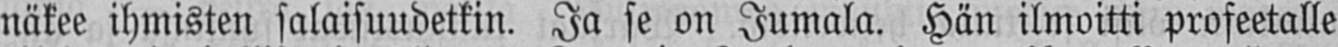näkee ihmisten salaisuudetkin. Ja se on Jumala. Hän ilmoitti profeetalle
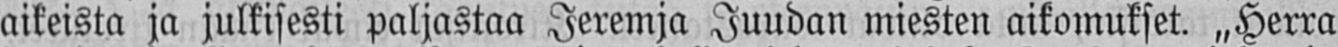aikeista ja julkisesti paljastaa Jeremja Juudan miesten aikomukset. „Herra
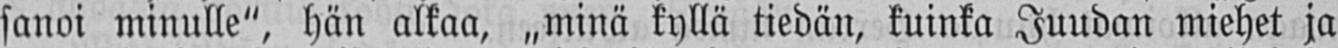sanoi minulle", hän alkaa, „minä kyllä tiedän, kuinka Juudan miehet ja
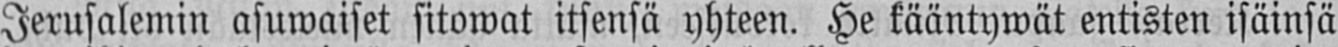Jerusalemin asuwaiset sitowat itsensä yhteen. He kääntywät entisten isäinsä
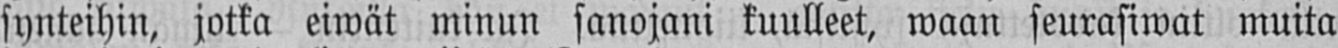synteihin, jotka eiwät minun sanojani kuulleet, waan seurasiwat muita
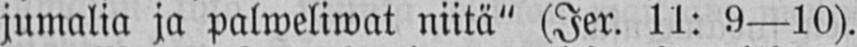jumalia ja palweliwat niitä" (Jer. 11: 9—10).
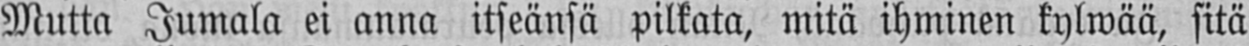Mutta Jumala ei anna itseänsä pilkata, mitä ihminen kylwää, sitä
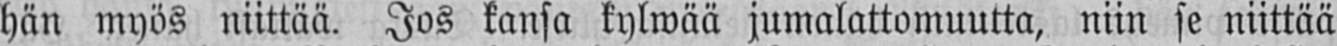hän myös niittää. Jos kansa kylwää jumalattomuutta, niin se niittää
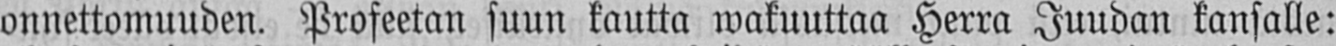onnettomuuden. Profeetan suun kautta wakuuttaa Herra Juudan kansalle:
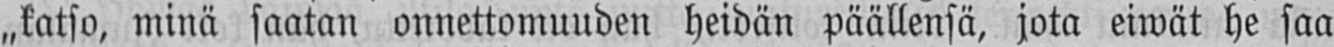„katso, minä saatan onnettomuuden heidän päällensä, jota eiwät he saa
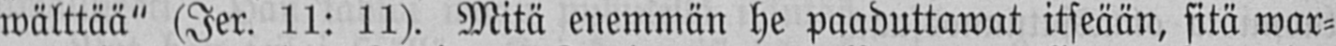wälttää" (Jer. 11: 11). Mitä enemmän he paaduttawat itseään, sitä war-
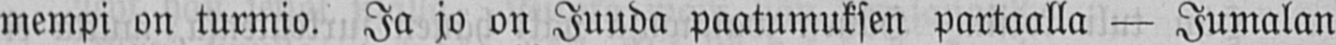mempi on turmio. Ja jo on Juuda paatumuksen partaalla — Jumalan
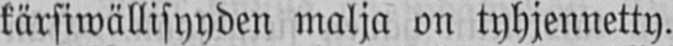kärsiwällisyyden malja on tyhjennetty.
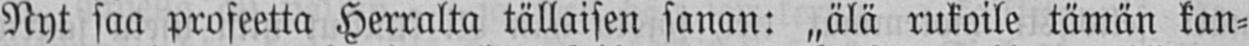Nyt saa profeetta Herralta tällaisen sanan: „älä rukoile tämän kan-
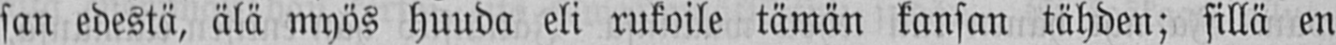san edestä, älä myös huuda eli rukoile tämän kansan tähden; sillä en
